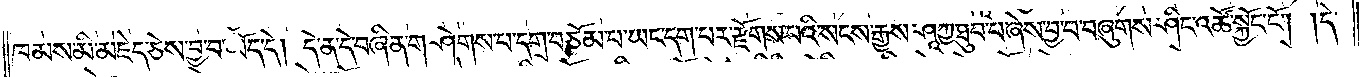ཁམས་མི་མཇེད་ཅེས་བྱ་བ་ཡོད་དེ། དེ་ན་དེ་བཞིན་གཤེགས་པ་དགྲ་བཅོམ་པ་ཡང་དག་པར་རྫོགས་པའི་སངས་རྒྱས་ཤཱཀྱ་ཐུབ་པ་ཞེས་བྱ་བ་བཞུགས་ཤིང་འཚོ་སྐྱོང་ངོ༌། །དེ་
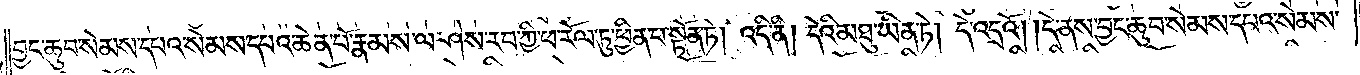བྱང་ཆུབ་སེམས་དཔའ་སེམས་དཔའ་ཆེན་པོ་རྣམས་ལ་ཤེས་རབ་ཀྱི་ཕ་རོལ་ཏུ་ཕྱིན་པ་སྟོན་ཏེ། འདི་ནི། དེའི་མཐུ་ཡིན་ཏེ། དེ་འདྲའོ། །དེ་ནས་བྱང་ཆུབ་སེམས་དཔའ་སེམས་
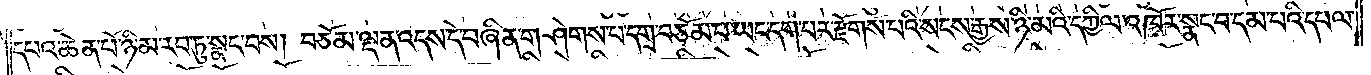དཔའ་ཆེན་པོ་ཉི་མ་རབ་ཏུ་སྣང་བས། བཅོམ་ལྡན་འདས་དེ་བཞིན་གཤེགས་པ་དགྲ་བཅོམ་པ་ཡང་དག་པར་རྫོགས་པའི་སངས་རྒྱས་ཉི་མའི་དཀྱིལ་འཁོར་སྣང་བ་དམ་པའི་དཔལ་
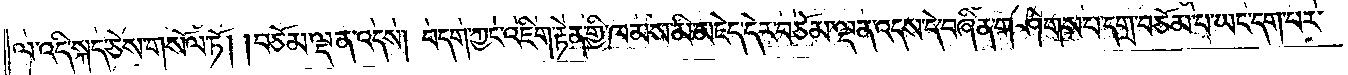ལ་འདི་སྐད་ཅེས་གསོལ་ཏོ། །བཅོམ་ལྡན་འདས། བདག་ཀྱང་འཇིག་རྟེན་གྱི་ཁམས་མི་མཇེད་དེར་བཅོམ་ལྡན་འདས་དེ་བཞིན་གཤེགས་པ་དགྲ་བཅོམ་པ་ཡང་དག་པར་
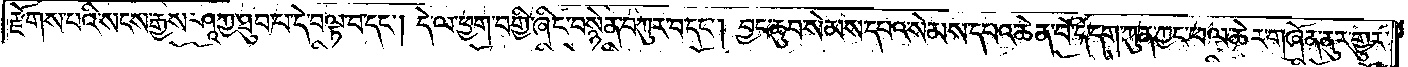རྫོགས་པའི་སངས་རྒྱས་ཤཱཀྱ་ཐུབ་པ་དེ་བལྟ་བ་དང༌། དེ་ལ་ཕྱག་བགྱི་ཞིང་བསྙེན་བཀུར་བ་དང༌། བྱང་ཆུབ་སེམས་དཔའ་སེམས་དཔའ་ཆེན་པོ་དེ་དག་ཀུན་ཀྱང་ཕལ་ཆེར་གཞོན་ནུ་གྱུར་
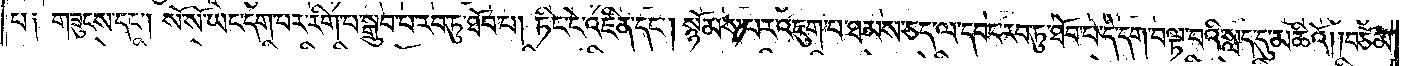པ༑ གཟུངས་དང༌། སོ་སོ་ཡང་དག་པར་རིག་པ་སྒྲུབ་པ་རབ་ཏུ་ཐོབ་པ། ཏིང་ངེ་འཛིན་དང༌། སྙོམས་པར་འཇུག་པ་ཐམས་ཅད་ལ་དབང་རབ་ཏུ་ཐོབ་པ་དེ་དག་བལྟ་བའི་སླད་དུ་མཆིའོ། །བཅོམ་
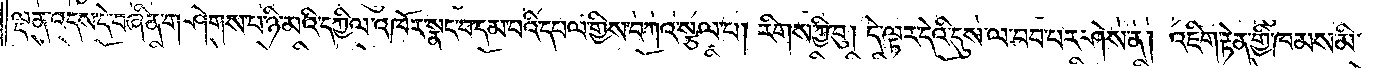ལྡན་འདས་དེ་བཞིན་གཤེགས་པ་ཉི་མའི་དཀྱིལ་འཁོར་སྣང་བ་དམ་པའི་དཔལ་གྱིས་བཀའ་སྩལ་པ། རིགས་ཀྱི་བུ། དེ་ལྟར་དེའི་དུས་ལ་བབ་པར་ཤེས་ན། འཇིག་རྟེན་གྱི་ཁམས་མི་
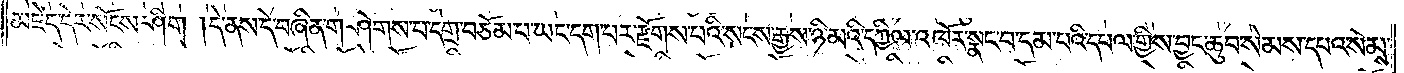མཇེད་དེར་སོངས་ཤིག །དེ་ནས་དེ་བཞིན་གཤེགས་པ་དགྲ་བཅོམ་པ་ཡང་དག་པར་རྫོགས་པའི་སངས་རྒྱས་ཉི་མའི་དཀྱིལ་འཁོར་སྣང་བ་དམ་པའི་དཔལ་གྱིས་བྱང་ཆུབ་སེམས་དཔའ་སེམས་
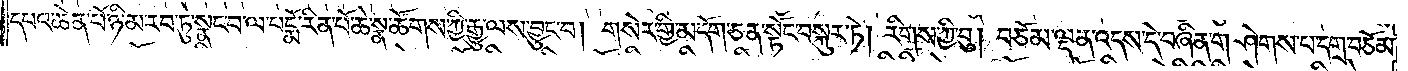དཔའ་ཆེན་པོ་ཉི་མ་རབ་ཏུ་སྣང་བ་ལ་པདྨོ་རིན་པོ་ཆེ་སྣ་ཚོགས་ཀྱི་རྒྱུ་ལས་བྱུང་བ། གསེར་གྱི་མདོག་ཅན་སྟོང་བསྐུར་ཏེ། རིགས་ཀྱི་བུ། བཅོམ་ལྡན་འདས་དེ་བཞིན་གཤེགས་པ་དགྲ་བཅོམ་
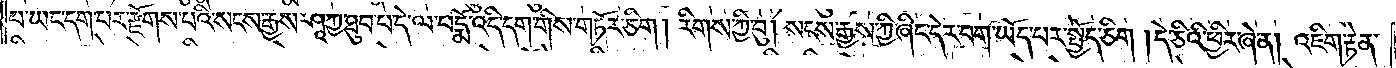པ་ཡང་དག་པར་རྫོགས་པའི་སངས་རྒྱས་ཤཱཀྱ་ཐུབ་པ་དེ་ལ་པདྨོ་འདི་དག་གིས་གཏོར་ཅིག། རིགས་ཀྱི་བུ། སངས་རྒྱས་ཀྱི་ཞིང་དེར་བག་ཡོད་པར་སྤྱོད་ཅིག །དེ་ཅིའི་ཕྱིར་ཞེ་ན། འཇིག་རྟེན་
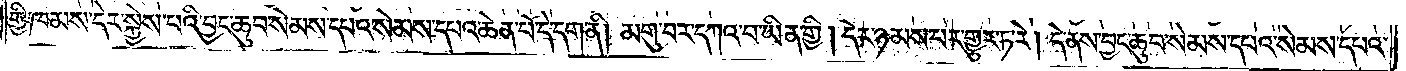གྱི་ཁམས་དེར་སྐྱེས་པའི་བྱང་ཆུབ་སེམས་དཔའ་སེམས་དཔའ་ཆེན་པོ་དེ་དག་ནི། མགུ་བར་དཀའ་བ་ཡིན་གྱི། དེར་ཉམས་པར་གྱུར་ཏ་རེ། དེ་ནས་བྱང་ཆུབ་སེམས་དཔའ་སེམས་དཔའ་
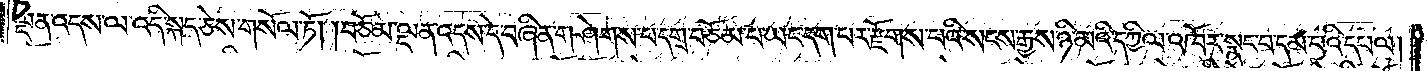ལྡན་འདས་ལ་འདི་སྐད་ཅེས་གསོལ་ཏོ། བཅོམ་ལྡན་འདས་དེ་བཞིན་གཤེགས་པ་དགྲ་བཅོམ་པ་ཡང་དག་པར་རྫོགས་པའི་སངས་རྒྱས་ཉི་མའི་དཀྱིལ་འཁོར་སྣང་བ་དམ་པའི་དཔལ།
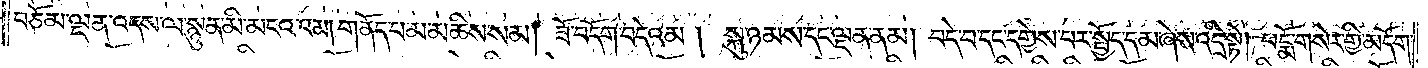བཅོམ་ལྡན་འདས་ལ་སྙུན་མི་མངའ་འམ།  གནོད་པ་མ་མཆིས་སམ།  ཟོ་བདོག་བདེའམ།  སྐུ་ཉམས་དང་ལྡན་ནམ།  བདེ་བ་དང་དགྱེས་པར་སྤྱོད་དམ་ཞེས་འདྲི་སྟེ།  པདྨོ་གསེར་གྱི་མདོག
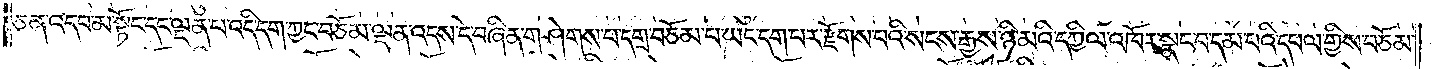ཅན་འདབ་མ་སྟོང་དང་ལྡན་པ་འདི་དག་ཀྱང་བཅོམ་ལྡན་འདས་དེ་བཞིན་གཤེགས་པ་དགྲ་བཅོམ་པ་ཡང་དག་པར་རྫོགས་པའི་སངས་རྒྱས་ཉི་མའི་དཀྱིལ་འཁོར་སྣང་བ་དམ་པའི་དཔལ་གྱིས་བཅོམ་
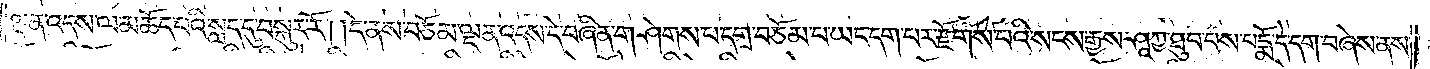ལྡན་པ་འདས་ལ་མཆོད་པའི་སླད་དུ་བསྐུར་རོ༎  དེ་ནས་བཅོམ་ལྡན་འདས་དེ་བཞིན་གཤེགས་པ་དགྲ་བཅོམ་པ་ཡང་དག་པར་རྫོགས་པའི་སངས་རྒྱས་ཤཱཀྱ་ཐུབ་པས་པདྨོ་དེ་དག་བཞེས་ནས་
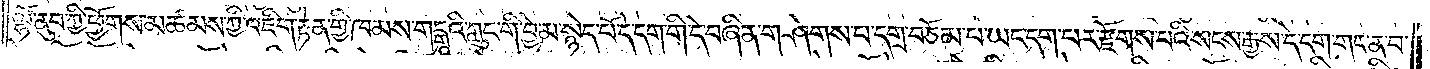ལྷོ་ནུབ་ཀྱི་ཕྱོགས་མཚམས་ཀྱི་འཇིག་རྟེན་གྱི་ཁམས་གངྒའི་ཀླུང་གི་བྱེ་མ་སྙེད་པོ་དེ་དག་གི་དེ་བཞིན་གཤེགས་པ་དགྲ་བཅོམ་པ་ཡང་དག་པར་རྫོགས་པའི་སངས་རྒྱས་དེ་དག་གང་ན་བ་
